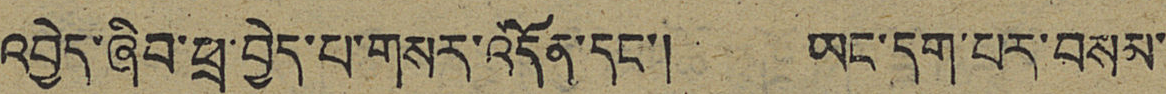འབྱེད་ཞིབ་ཕྲ་བྱེད་པ་གསར་འདོན་དང་། ཡང་དག་པར་བསམ་
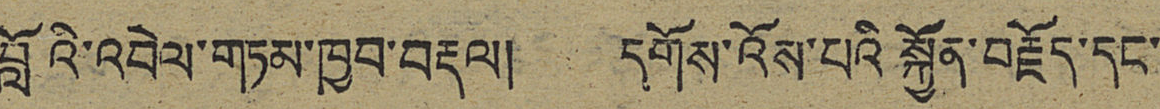བློའི་འབེལ་གཏམ་ཁྱབ་བརྡལ། དགོས་འོས་པའི་སྐྱོན་བརྗོད་དང་
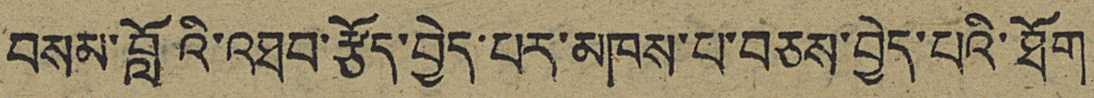བསམ་བློའི་འཐབ་རྩོད་བྱེད་པར་མཁས་པ་བཅས་བྱེད་པའི་ཐོག
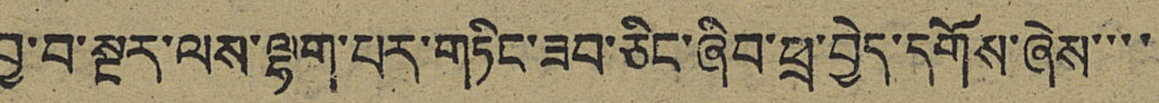བྱ་བ་སྔར་ལས་ལྷག་པར་གཏིང་ཟབ་ཅིང་ཞིབ་ཕྲ་བྱེད་དགོས་ཞེས་་་་
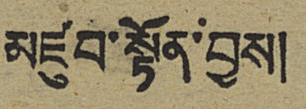མཛུབ་སྟོན་བྱས།
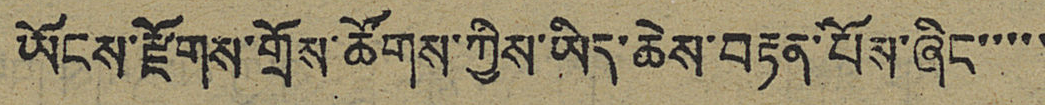ཡོངས་རྫོགས་གྲོས་ཚོགས་ཀྱིས་ཡིད་ཆེས་བརྟན་པོས་ཞིང་་་་་
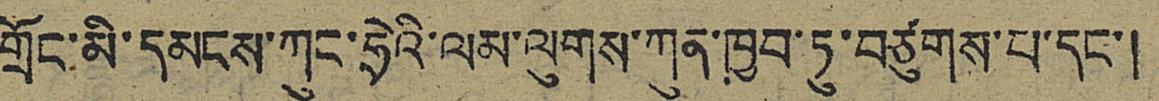གྲོང་མི་དམངས་ཀུང་ཧྲེའི་ལམ་ལུགས་ཀུན་ཁྱབ་ཏུ་བཙུགས་པ་དང་།
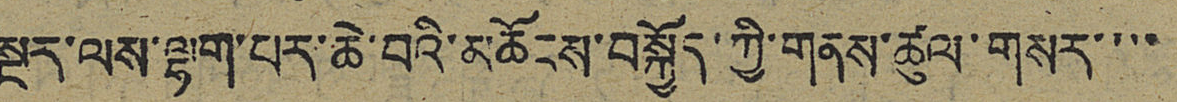སྔར་ལས་ལྷག་པར་ཆེ་བའི་མཆོངས་བསྐྱོད་ཀྱི་གནས་ཚུལ་གསར་་་་
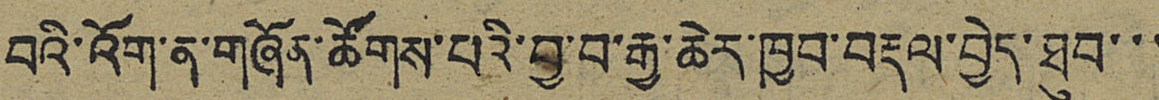བའི་འོག་ན་གཞོན་ཚོགས་པའི་བྱ་བ་རྒྱ་ཆེར་ཁྱབ་བརྡལ་བྱེད་ཐུབ་་་
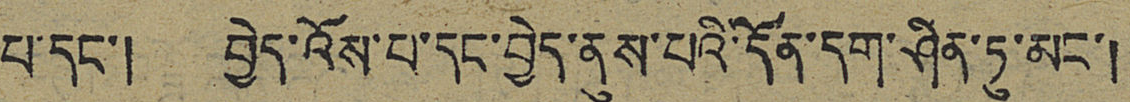པ་དང་། བྱེད་འོས་པ་དང་བྱེད་ནུས་པའི་དོན་དག་ཤིན་ཏུ་མང་།
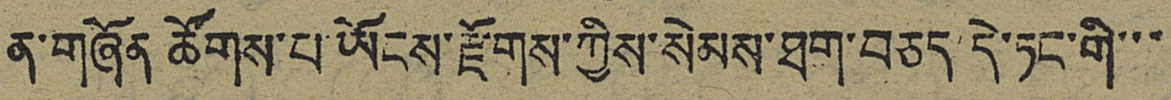ན་གཞོན ཚོགས་པ་ཡོངས་རྫོགས་ཀྱིས་སེམས་ཐག་བཅད་དེ་ཏང་གི་་་
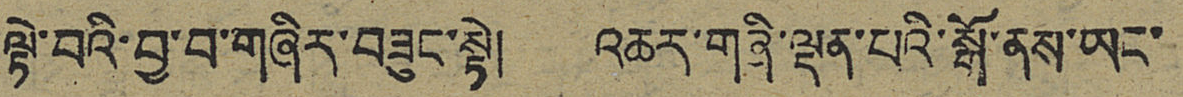ལྟེ་བའི་བྱ་བ་གཞིར་བཟུང་སྟེ། འཆར་གཞི་ལྡན་པའི་སྒོ་ནས་ཡང་
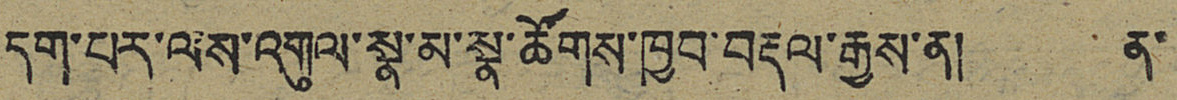དག་པར་ལས་འགུལ་སྣ་མ་སྣ་ཚོགས་ཁྱབ་བརྡལ་རྒྱས་ན། ན་
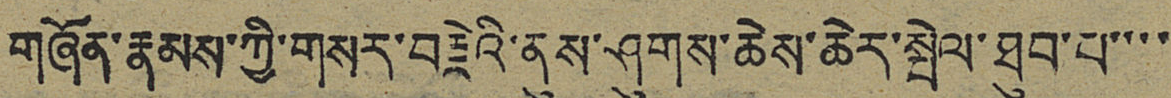གཞོན་རྣམས་ཀྱི་གསར་བརྗེའི་ནུས་ཤུགས་ཆེས་ཆེར་སྤེལ་ཐུབ་པ་་་་
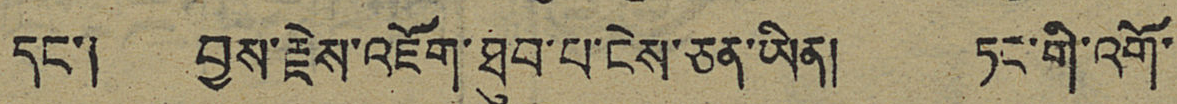དང་། བྱས་རྗེས་འཇོག་ཐུབ་པ་ངེས་ཅན་ཡིན། ཏང་གི་འགོ་
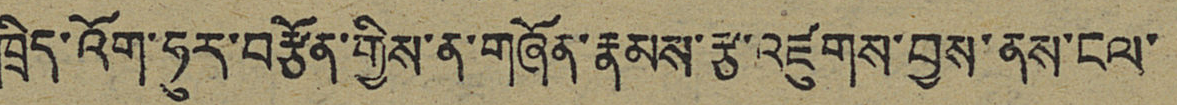ཁྲིད་འོག་ཧུར་བརྩོན་གྱིས་ན་གཞོན་རྣམས་རྩ་འཛུགས་བྱས་ནས་ངལ་
